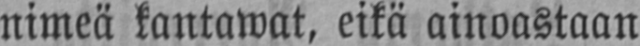nimeä kantawat, eikä ainoastaan
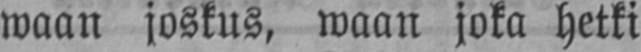waan joskus, waan joka hetki
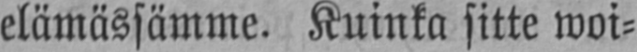elämässämme. Kuinka sitte woi-
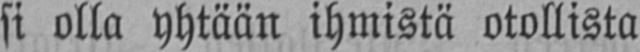si olla yhtään ihmistä otollista
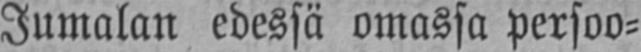Jumalan edessä omassa persoo-
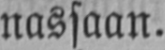nassaan.
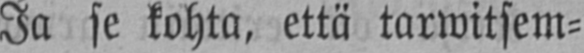Ja se kohta, että tarwitsem-
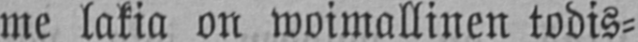me lakia on woimallinen todis-
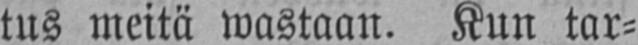tus meitä wastaan. Kun tar-
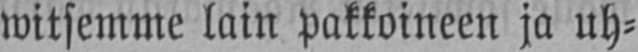witsemme lain pakkoineen ja uh-
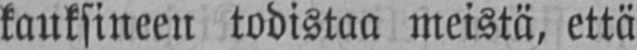kauksineen todistaa meistä, että
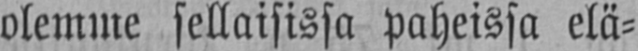olemme sellaisissa paheissa elä-
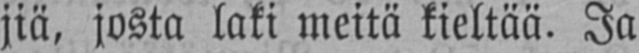jiä, josta laki meitä kieltää. Ja
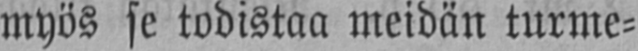myös se todistaa meidän turme-
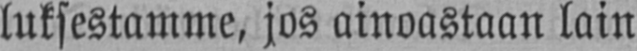luksestamme, jos ainoastaan lain
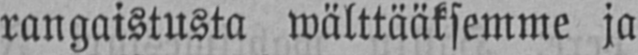rangaistusta wälttääksemme ja
